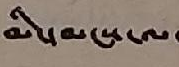མི་དམངས་ལ་ཕན་པ་ཧ་ཅང་ཆེན་པོ་ཐོགས་པ་རེད་།
